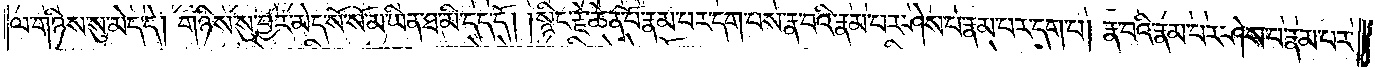ལ་གཉིས་སུ་མེད་དེ། གཉིས་སུ་བྱར་མེད་སོ་སོ་མ་ཡིན་ཐ་མི་དད་དོ། །སྙིང་རྗེ་ཆེན་པོ་རྣམ་པར་དག་པས་རྣ་བའི་རྣམ་པར་ཤེས་པ་རྣམ་པར་དག་པ། རྣ་བའི་རྣམ་པར་ཤེས་པ་རྣམ་པར་
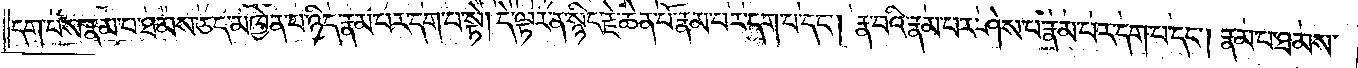དག་པས་རྣམ་པ་ཐམས་ཅད་མཁྱེན་པ་ཉིད་རྣམ་པར་དག་པ་སྟེ། དེ་ལྟར་ན་སྙིང་རྗེ་ཆེན་པོ་རྣམ་པར་དག་པ་དང༌། རྣ་བའི་རྣམ་པར་ཤེས་པ་རྣམ་པར་དག་པ་དང༌། རྣམ་པ་ཐམས་
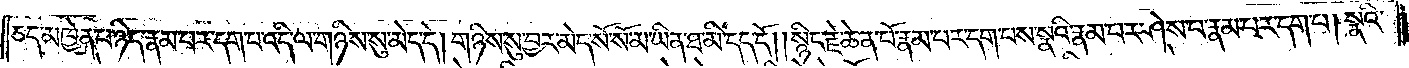ཅད་མཁྱེན་པ་ཉིད་རྣམ་པར་དག་པ་འདི་ལ་གཉིས་སུ་མེད་དེ། གཉིས་སུ་བྱར་མེད་སོ་སོ་མ་ཡིན་ཐ་མི་དད་དོ། །སྙིང་རྗེ་ཆེན་པོ་རྣམ་པར་དག་པས་སྣའི་རྣམ་པར་ཤེས་པ་རྣམ་པར་དག་པ། སྣའི་
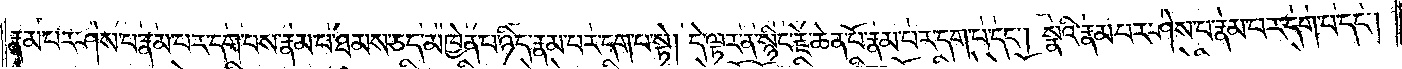རྣམ་པར་ཤེས་པ་རྣམ་པར་དག་པས་རྣམ་པ་ཐམས་ཅད་མཁྱེན་པ་ཉིད་རྣམ་པར་དག་པ་སྟེ། དེ་ལྟར་ན་སྙིང་རྗེ་ཆེན་པོ་རྣམ་པར་དག་པ་དང༌། སྣའི་རྣམ་པར་ཤེས་པ་རྣམ་པར་དག་པ་དང༌།
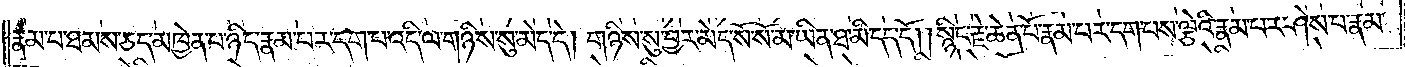རྣམ་པ་ཐམས་ཅད་མཁྱེན་པ་ཉིད་རྣམ་པར་དག་པ་འདི་ལ་གཉིས་སུ་མེད་དེ། གཉིས་སུ་བྱར་མེད་སོ་སོ་མ་ཡིན་ཐ་མི་དད་དོ། །སྙིང་རྗེ་ཆེན་པོ་རྣམ་པར་དག་པས་ལྕེའི་རྣམ་པར་ཤེས་པ་རྣམ་
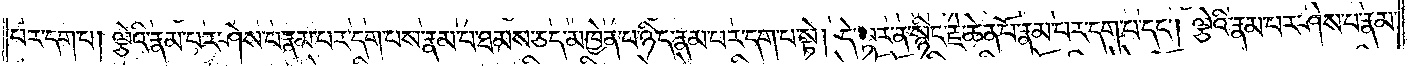པར་དག་པ། ལྕེའི་རྣམ་པར་ཤེས་པ་རྣམ་པར་དག་པས་རྣམ་པ་ཐམས་ཅད་མཁྱེན་པ་ཉིད་རྣམ་པར་དག་པ་སྟེ། དེ་ལྟར་ན་སྙིང་རྗེ་ཆེན་པོ་རྣམ་པར་དག་པ་དང༌། ལྕེའི་རྣམ་པར་ཤེས་པ་རྣམ་
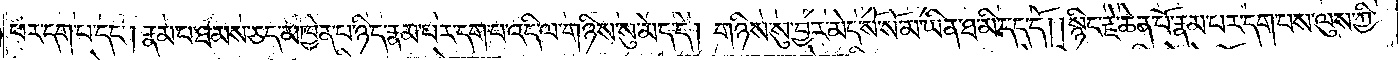པར་དག་པ་དང༌། རྣམ་པ་ཐམས་ཅད་མཁྱེན་པ་ཉིད་རྣམ་པར་དག་པ་འདི་ལ་གཉིས་སུ་མེད་དེ། གཉིས་སུ་བྱར་མེད་སོ་སོ་མ་ཡིན་ཐ་མི་དད་དོ། །སྙིང་རྗེ་ཆེན་པོ་རྣམ་པར་དག་པས་ལུས་ཀྱི་
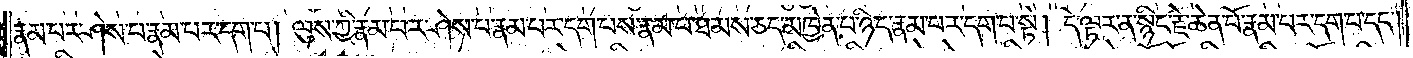རྣམ་པར་ཤེས་པ་རྣམ་པར་དག་པ། ལུས་ཀྱི་རྣམ་པར་ཤེས་པ་རྣམ་པར་དག་པས་རྣམ་པ་ཐམས་ཅད་མཁྱེན་པ་ཉིད་རྣམ་པར་དག་པ་སྟེ། དེ་ལྟར་ན་སྙིང་རྗེ་ཆེན་པོ་རྣམ་པར་དག་པ་དང༌།
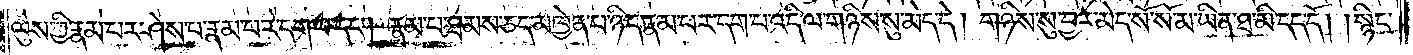ལུས་ཀྱི་རྣམ་པར་ཤེས་པ་རྣམ་པར་དག་པ་དང༌། རྣམ་པ་ཐམས་ཅད་མཁྱེན་པ་ཉིད་རྣམ་པར་དག་པ་འདི་ལ་གཉིས་སུ་མེད་དེ། གཉིས་སུ་བྱར་མེད་སོ་སོ་མ་ཡིན་ཐ་མི་དད་དོ། །སྙིང་
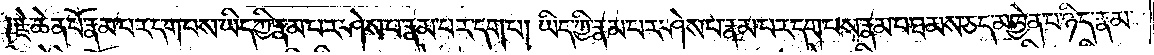རྗེ་ཆེན་པོ་རྣམ་པར་དག་པས་ཡིད་ཀྱི་རྣམ་པར་ཤེས་པ་རྣམ་པར་དག་པ། ཡིད་ཀྱི་རྣམ་པར་ཤེས་པ་རྣམ་པར་དག་པས་རྣམ་པ་ཐམས་ཅད་མཁྱེན་པ་ཉིད་རྣམ་
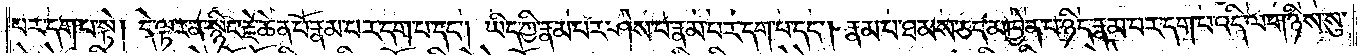པར་དག་པ་སྟེ། དེ་ལྟར་ན་སྙིང་རྗེ་ཆེན་པོ་རྣམ་པར་དག་པ་དང༌། ཡིད་ཀྱི་རྣམ་པར་ཤེས་པ་རྣམ་པར་དག་པ་དང༌། རྣམ་པ་ཐམས་ཅད་མཁྱེན་པ་ཉིད་རྣམ་པར་དག་པ་འདི་ལ་གཉིས་སུ་
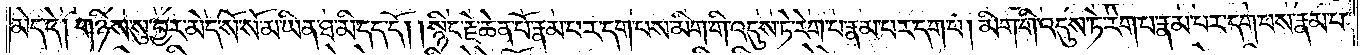མེད་དེ། གཉིས་སུ་བྱར་མེད་སོ་སོ་མ་ཡིན་ཐ་མི་དད་དོ། །སྙིང་རྗེ་ཆེན་པོ་རྣམ་པར་དག་པས་མིག་གི་འདུས་ཏེ་རེག་པ་རྣམ་པར་དག་པ། མིག་གི་འདུས་ཏེ་རེག་པ་རྣམ་པར་དག་པས་རྣམ་པ་
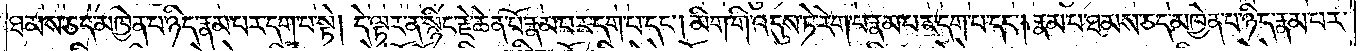ཐམས་ཅད་མཁྱེན་པ་ཉིད་རྣམ་པར་དག་པ་སྟེ། དེ་ལྟར་ན་སྙིང་རྗེ་ཆེན་པོ་རྣམ་པར་དག་པ་དང༌། མིག་གི་འདུས་ཏེ་རེག་པ་རྣམ་པར་དག་པ་དང༌། རྣམ་པ་ཐམས་ཅད་མཁྱེན་པ་ཉིད་རྣམ་པར་
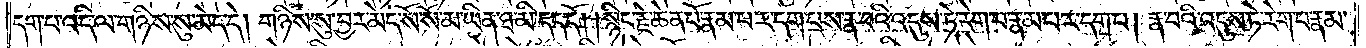དག་པ་འདི་ལ་གཉིས་སུ་མེད་དེ། གཉིས་སུ་བྱར་མེད་སོ་སོ་མ་ཡིན་ཐ་མི་དད་དོ། །སྙིང་རྗེ་ཆེན་པོ་རྣམ་པར་དག་པས་རྣ་བའི་འདུས་ཏེ་རེག་པ་རྣམ་པར་དག་པ། རྣ་བའི་འདུས་ཏེ་རེག་པ་རྣམ་
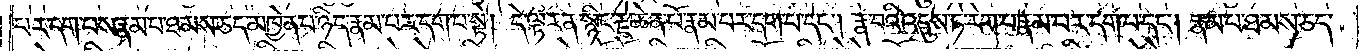པར་དག་པས་རྣམ་པ་ཐམས་ཅད་མཁྱེན་པ་ཉིད་རྣམ་པར་དག་པ་སྟེ། དེ་ལྟར་ན་སྙིང་རྗེ་ཆེན་པོ་རྣམ་པར་དག་པ་དང༌། རྣ་བའི་འདུས་ཏེ་རེག་པ་རྣམ་པར་དག་པ་དང༌། རྣམ་པ་ཐམས་ཅད་
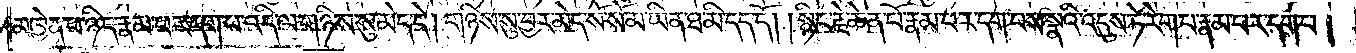མཁྱེན་པ་ཉིད་རྣམ་པར་དག་པ་འདི་ལ་གཉིས་སུ་མེད་དེ། གཉིས་སུ་བྱར་མེད་སོ་སོ་མ་ཡིན་ཐ་མི་དད་དོ། །སྙིང་རྗེ་ཆེན་པོ་རྣམ་པར་དག་པས་སྣའི་འདུས་ཏེ་རེག་པ་རྣམ་པར་དག་པ།
